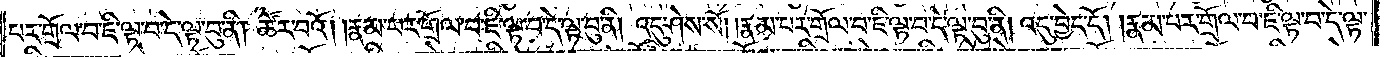པར་གྲོལ་བ་ཇི་ལྟ་བ་དེ་ལྟ་བུ་ནི། ཚོར་བའོ། །རྣམ་པར་གྲོལ་བ་ཇི་ལྟ་བ་དེ་ལྟ་བུ་ནི། འདུ་ཤེས་སོ། །རྣམ་པར་གྲོལ་བ་ཇི་ལྟ་བ་དེ་ལྟ་བུ་ནི། འདུ་བྱེད་དོ། །རྣམ་པར་གྲོལ་བ་ཇི་ལྟ་བ་དེ་ལྟ་
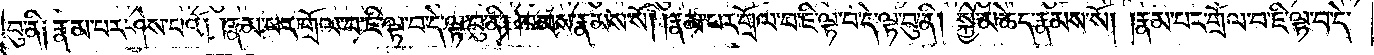བུ་ནི༑ རྣམ་པར་ཤེས་པའོ། །རྣམ་པར་གྲོལ་བ་ཇི་ལྟ་བ་དེ་ལྟ་བུ་ནི། ཁམས་རྣམས་སོ། །རྣམ་པར་གྲོལ་བ་ཇི་ལྟ་བ་དེ་ལྟ་བུ་ནི། སྐྱེ་མཆེད་རྣམས་སོ། །རྣམ་པར་གྲོལ་བ་ཇི་ལྟ་བ་དེ་
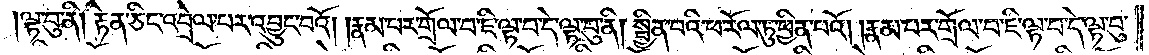ལྟ་བུ་ནི། རྟེན་ཅིང་འབྲེལ་པར་འབྱུང་བའོ། །རྣམ་པར་གྲོལ་བ་ཇི་ལྟ་བ་དེ་ལྟ་བུ་ནི། སྦྱིན་པའི་ཕ་རོལ་ཏུ་ཕྱིན་པའོ། །རྣམ་པར་གྲོལ་བ་ཇི་ལྟ་བ་དེ་ལྟ་བུ་
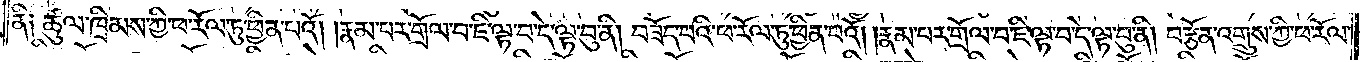ནི༑ ཚུལ་ཁྲིམས་ཀྱི་ཕ་རོལ་ཏུ་ཕྱིན་པའོ། །རྣམ་པར་གྲོལ་བ་ཇི་ལྟ་བ་དེ་ལྟ་བུ་ནི། བཟོད་པའི་ཕ་རོལ་ཏུ་ཕྱིན་པའོ། །རྣམ་པར་གྲོལ་བ་ཇི་ལྟ་བ་དེ་ལྟ་བུ་ནི། བརྩོན་འགྲུས་ཀྱི་ཕ་རོལ་
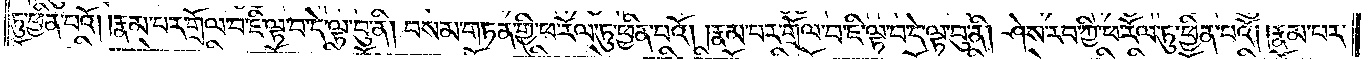ཏུ་ཕྱིན་པའོ། །རྣམ་པར་གྲོལ་བ་ཇི་ལྟ་བ་དེ་ལྟ་བུ་ནི། བསམ་གཏན་གྱི་ཕ་རོལ་ཏུ་ཕྱིན་པའོ། །རྣམ་པར་གྲོལ་བ་ཇི་ལྟ་བ་དེ་ལྟ་བུ་ནི། ཤེས་རབ་ཀྱི་ཕ་རོལ་ཏུ་ཕྱིན་པའོ། །རྣམ་པར་
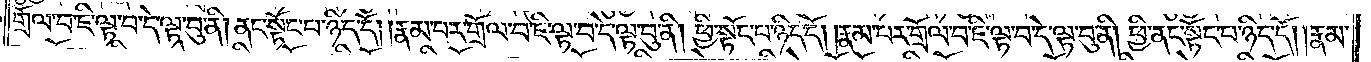གྲོལ་བ་ཇི་ལྟ་བ་དེ་ལྟ་བུ་ནི། ནང་སྟོང་པ་ཉིད་དོ། །རྣམ་པར་གྲོལ་བ་ཇི་ལྟ་བ་དེ་ལྟ་བུ་ནི། ཕྱི་སྟོང་པ་ཉིད་དོ། །རྣམ་པར་གྲོལ་བ་ཇི་ལྟ་བ་དེ་ལྟ་བུ་ནི། ཕྱི་ནང་སྟོང་པ་ཉིད་དོ། །རྣམ་
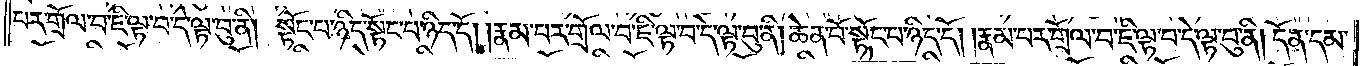པར་གྲོལ་བ་ཇི་ལྟ་བ་དེ་ལྟ་བུ་ནི། སྟོང་པ་ཉིད་སྟོང་པ་ཉིད་དོ། །རྣམ་པར་གྲོལ་བ་ཇི་ལྟ་བ་དེ་ལྟ་བུ་ནི། ཆེན་པོ་སྟོང་པ་ཉིད་དོ། །རྣམ་པར་གྲོལ་བ་ཇི་ལྟ་བ་དེ་ལྟ་བུ་ནི། དོན་དམ་
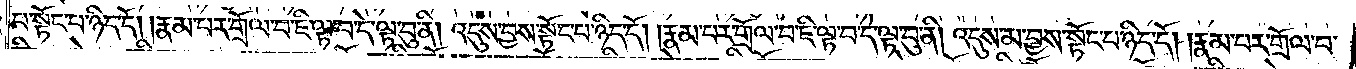པ་སྟོང་པ་ཉིད་དོ། །རྣམ་པར་གྲོལ་བ་ཇི་ལྟ་བ་དེ་ལྟ་བུ་ནི། འདུས་བྱས་སྟོང་པ་ཉིད་དོ། །རྣམ་པར་གྲོལ་བ་ཇི་ལྟ་བ་དེ་ལྟ་བུ་ནི། འདུས་མ་བྱས་སྟོང་པ་ཉིད་དོ། །རྣམ་པར་གྲོལ་བ་
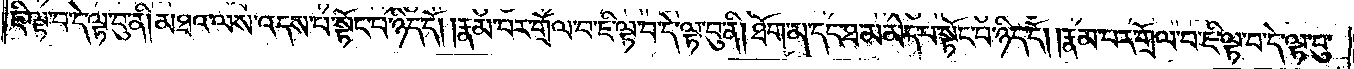ཇི་ལྟ་བ་དེ་ལྟ་བུ་ནི། མཐའ་ལས་འདས་པ་སྟོང་པ་ཉིད་དོ། །རྣམ་པར་གྲོལ་བ་ཇི་ལྟ་བ་དེ་ལྟ་བུ་ནི། ཐོག་མ་དང་ཐ་མ་མེད་པ་སྟོང་པ་ཉིད་དོ། །རྣམ་པར་གྲོལ་བ་ཇི་ལྟ་བ་དེ་ལྟ་བུ་
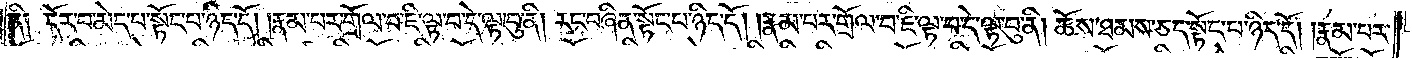ནི༑ དོར་བ་མེད་པ་སྟོང་པ་ཉིད་དོ། །རྣམ་པར་གྲོལ་བ་ཇི་ལྟ་བ་དེ་ལྟ་བུ་ནི། རང་བཞིན་སྟོང་པ་ཉིད་དོ། །རྣམ་པར་གྲོལ་བ་ཇི་ལྟ་བ་དེ་ལྟ་བུ་ནི། ཆོས་ཐམས་ཅད་སྟོང་པ་ཉིད་དོ། །རྣམ་པར་
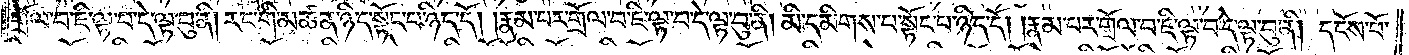གྲོལ་བ་ཇི་ལྟ་བ་དེ་ལྟ་བུ་ནི། རང་གི་མཚན་ཉིད་སྟོང་པ་ཉིད་དོ། །རྣམ་པར་གྲོལ་བ་ཇི་ལྟ་བ་དེ་ལྟ་བུ་ནི། མིག་དམིགས་པ་སྟོང་པ་ཉིད་དོ། །རྣམ་པར་གྲོལ་བ་ཇི་ལྟ་བ་དེ་ལྟ་བུ་ནི། དངོས་པོ་
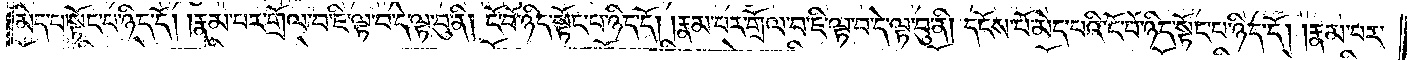མེད་པ་སྟོང་པ་ཉིད་དོ། །རྣམ་པར་གྲོལ་བ་ཇི་ལྟ་བ་དེ་ལྟ་བུ་ནི། ངོ་བོ་ཉིད་སྟོང་པ་ཉིད་དོ། །རྣམ་པར་གྲོལ་བ་ཇི་ལྟ་བ་དེ་ལྟ་བུ་ནི། དངོས་པོ་མེད་པའི་ངོ་བོ་ཉིད་སྟོང་པ་ཉིད་དོ། །རྣམ་པར་
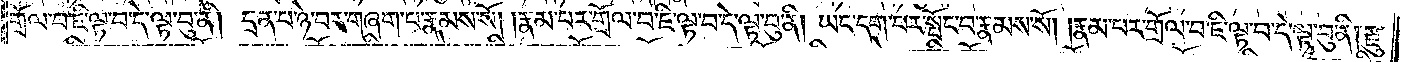གྲོལ་བ་ཇི་ལྟ་བ་དེ་ལྟ་བུ་ནི། དྲན་པ་ཉེ་བར་གཞག་པ་རྣམས་སོ། །རྣམ་པར་གྲོལ་བ་ཇི་ལྟ་བ་དེ་ལྟ་བུ་ནི། ཡང་དག་པར་སྤོང་བ་རྣམས་སོ། །རྣམ་པར་གྲོལ་བ་ཇི་ལྟ་བ་དེ་ལྟ་བུ་ནི། རྫུ་
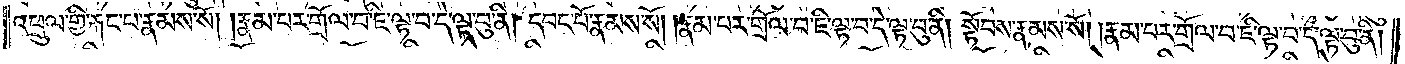འཕྲུལ་གྱི་རྐང་པ་རྣམས་སོ། །རྣམ་པར་གྲོལ་བ་ཇི་ལྟ་བ་དེ་ལྟ་བུ་ནི། དབང་པོ་རྣམས་སོ། །རྣམ་པར་གྲོལ་བ་ཇི་ལྟ་བ་དེ་ལྟ་བུ་ནི། སྟོབས་རྣམས་སོ། །རྣམ་པར་གྲོལ་བ་ཇི་ལྟ་བ་དེ་ལྟ་བུ་ནི།
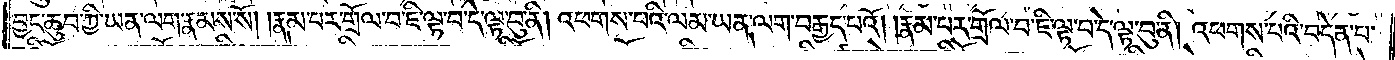བྱང་ཆུབ་ཀྱི་ཡན་ལག་རྣམས་སོ། །རྣམ་པར་གྲོལ་བ་ཇི་ལྟ་བ་དེ་ལྟ་བུ་ནི། འཕགས་པའི་ལམ་ཡན་ལག་བརྒྱད་པའོ། །རྣམ་པར་གྲོལ་བ་ཇི་ལྟ་བ་དེ་ལྟ་བུ་ནི། འཕགས་པའི་བདེན་པ་
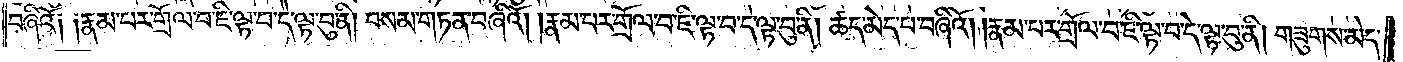བཞིའོ༑ ༑རྣམ་པར་གྲོལ་བ་ཇི་ལྟ་བ་དེ་ལྟ་བུ་ནི། བསམ་གཏན་བཞིའོ། །རྣམ་པར་གྲོལ་བ་ཇི་ལྟ་བ་དེ་ལྟ་བུ་ནི། ཚད་མེད་པ་བཞིའོ། །རྣམ་པར་གྲོལ་བ་ཇི་ལྟ་བ་དེ་ལྟ་བུ་ནི། གཟུགས་མེད་
